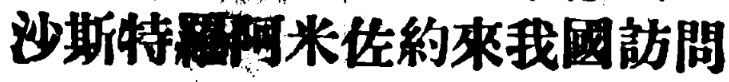沙斯特羅阿米佐約來我國訪問
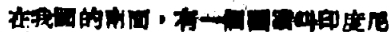在我國的南面，有一個國家叫印度尼
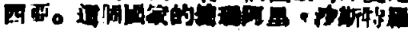西亞。這個國家的總理阿里・沙斯特羅
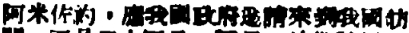阿米佐約，應我國政府邀請來到我國訪
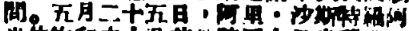問。五月二十五日，阿里・沙斯特羅阿
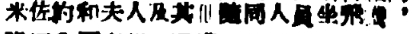米佐約和夫人及其他隨同人員坐飛機，
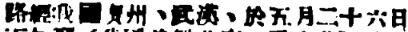路經我國廣州、武漢，於五月二十六日
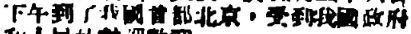下午到了我國首都北京，受到我國政府
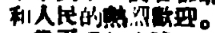和人民的熱烈歡迎。
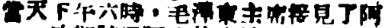當天下午六時，毛澤東主席接見了阿
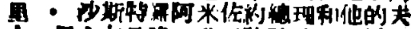里・沙斯特羅阿米佐約總理和他的夫
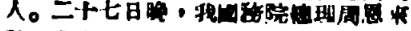人。二十七日晚，我國務院總理周恩來
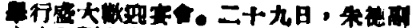舉行盛大歡迎宴會。二十九日，朱德副
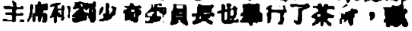主席和劉少奇委員長也舉行了茶會，歡
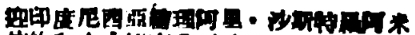迎印度尼西亞總理阿里・沙斯特羅阿米
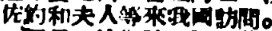佐約和夫人等來我國訪問。
